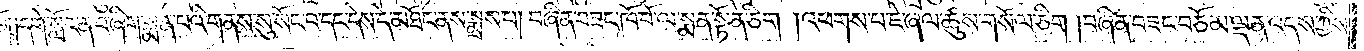སོ༑ ༑དགེ་སློང་ན་བ་ཞིག་སྨན་པའི་གནས་སུ་སོང་བ་དང་དེས་དེ་མཐོང་ནས་སྨྲས་པ། བཞིན་བཟང་ཁོ་བོ་ལ་སྨན་སྟོན་ཅིག །འཕགས་པ་ཇེ་ཞལ་ཚུས་གསོལ་ཅིག །བཞིན་བཟང་བཅོམ་ལྡན་འདས་ཀྱིས་
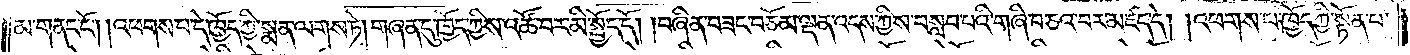མ་གནང་ངོ༌། །འཕགས་པ་དེ་ཁྱོད་ཀྱི་སྨན་ལགས་ཏེ། གཞན་དུ་ཁྱོད་ཀྱིས་འཚོ་བར་མི་སྤྱོད་དོ། །བཞིན་བཟང་བཅོམ་ལྡན་འདས་ཀྱིས་བསླབ་པའི་གཞི་བཅའ་བར་མཛད་དེ། །འཕགས་པ་ཁྱོད་ཀྱི་སྟོན་པ་
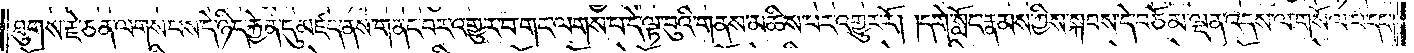ཐུགས་རྗེ་ཅན་ལགས་པས་དེ་ཉིད་རྐྱེན་དུ་མཛད་ནས་གནང་བར་འགྱུར་བ་གང་ལགས་པ་དེ་ལྟ་བུའི་གནས་མཆིས་པར་འགྱུར་རོ། །དགེ་སློང་རྣམས་ཀྱིས་སྐབས་དེ་བཅོམ་ལྡན་འདས་ལ་གསོལ་པ་དང༌།
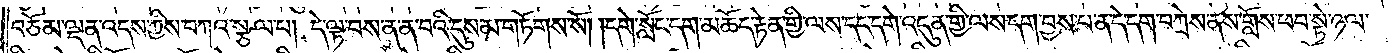བཅོམ་ལྡན་འདས་ཀྱིས་བཀའ་སྩལ་པ། དེ་ལྟ་བས་ན་ན་བའི་དུས་མ་གཏོགས་སོ། །དགེ་སློང་དག་མཆོད་རྟེན་གྱི་ལས་དང་དགེ་འདུན་གྱི་ལས་དག་བྱས་པ་ན་དེ་དག་བཀྲེས་ནས་གློས་ཕབ་སྟེ་ཉལ་
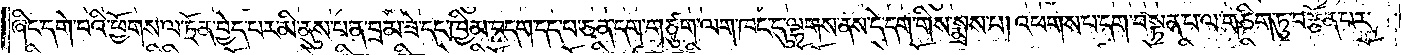ཞིང་དགེ་བའི་ཕྱོགས་ལ་ཏྲོན་བྱེད་པར་མི་ནུས་པ་ན་བྲམ་ཟེ་དང་ཁྱིམ་བདག་དད་པ་ཅན་དག་གཙུག་ལག་ཁང་དུ་ལྷགས་ནས་དེ་དག་གིས་སྨྲས་པ། འཕགས་པ་དག་བསྟན་པ་ལ་གཅིག་ཏུ་བརྩོན་པར་
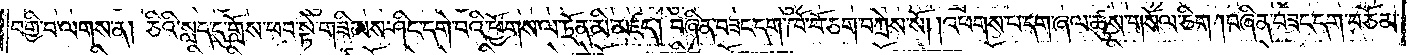བགྱི་བ་ལགས་ན། ཅིའི་སླད་དུ་གློས་ཕབ་སྟེ་གཟིམས་ཤིང་དགེ་བའི་ཕྱོགས་ལ་ཏྲོན་མི་མཛད། བཞིན་བཟང་དག་ཁོ་བོ་ཅག་བཀྲེས་སོ། །འཕགས་པ་དག་ཞལ་ཚུས་གསོལ་ཅིག །བཞིན་བཟང་དག་བཅོམ་
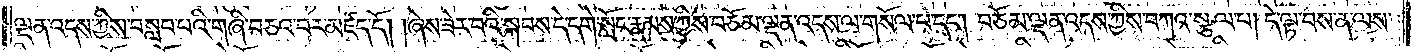ལྡན་འདས་ཀྱིས་བསླབ་པའི་གཞི་བཅའ་བར་མཛད་དོ། །ཞེས་ཟེར་བའི་སྐབས་དེ་དགེ་སློང་རྣམས་ཀྱིས་བཅོམ་ལྡན་འདས་ལ་གསོལ་པ་དང༌། བཅོམ་ལྡན་འདས་ཀྱིས་བཀའ་སྩལ་པ། དེ་ལྟ་བས་ན་ལས་
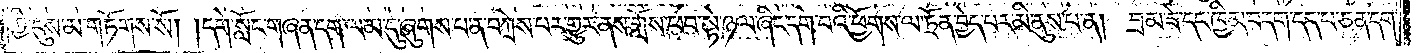ཀྱི་དུས་མ་གཏོགས་སོ། །དགེ་སློང་གཞན་དག་ལམ་དུ་ཞུགས་པ་ན་བཀྲེས་པར་གྱུར་ནས་གློས་ཕབ་སྟེ་ཉལ་ཞིང་དགེ་བའི་ཕྱོགས་ལ་ཏྲོན་བྱེད་པར་མི་ནུས་པ་ན། བྲམ་ཟེ་དང་ཁྱིམ་བདག་དད་པ་ཅན་དག་
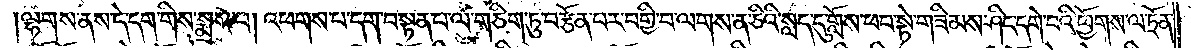ལྷགས་ནས་དེ་དག་གིས་སྨྲས་པ། འཕགས་པ་དག་བསྟན་པ་ལ་གཅིག་ཏུ་བརྩོན་པར་བགྱི་བ་ལགས་ན་ཅིའི་སླད་དུ་གློས་ཕབ་སྟེ་གཟིམས་ཤིང་དགེ་བའི་ཕྱོགས་ལ་ཏྲོན་
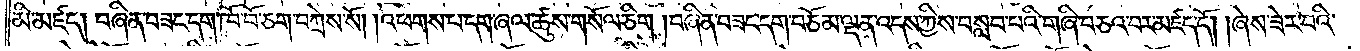མི་མཛད། བཞིན་བཟང་དག་ཁོ་བོ་ཅག་བཀྲེས་སོ། །འཕགས་པ་དག་ཞལ་ཚུས་གསོལ་ཅིག །བཞིན་བཟང་དག་བཅོམ་ལྡན་འདས་ཀྱིས་བསླབ་པའི་གཞི་བཅའ་བར་མཛད་དོ། །ཞེས་ཟེར་བའི་
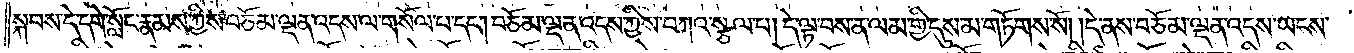སྐབས་དེ་དགེ་སློང་རྣམས་ཀྱིས་བཅོམ་ལྡན་འདས་ལ་གསོལ་པ་དང༌། བཅོམ་ལྡན་འདས་ཀྱིས་བཀའ་སྩལ་པ། དེ་ལྟ་བས་ན་ལམ་གྱི་དུས་མ་གཏོགས་སོ། །དེ་ནས་བཅོམ་ལྡན་འདས་ཡངས་
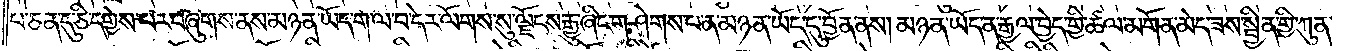པ་ཅན་དུ་ཅི་དགྱེས་པར་བཞུགས་ནས་མཉན་ཡོད་ག་ལ་བ་དེར་ལོགས་སུ་ལྗོངས་རྒྱུ་ཞིང་གཤེགས་པ་ན་མཉན་ཡོད་དུ་བྱོན་ནས། མཉན་ཡོད་ན་རྒྱལ་བྱེད་ཀྱི་ཚལ་མགོན་མེད་ཟས་སྦྱིན་གྱི་ཀུན་
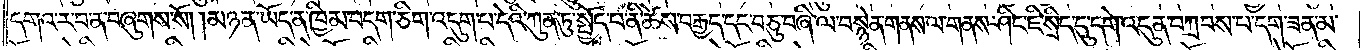དགའ་ར་བ་ན་བཞུགས་སོ། །མཉན་ཡོད་ན་ཁྱིམ་བདག་ཅིག་འདུག་པ་དེའི་ཀུན་ཏུ་སྤྱོད་པ་ནི་ཚེས་བརྒྱད་དང་བཅུ་བཞི་ལ་བསྙེན་གནས་ལ་གནས་ཤིང་ཇི་སྲིད་དུ་དགེ་འདུན་བཀྲབས་པ་དག་ཟན་མ་
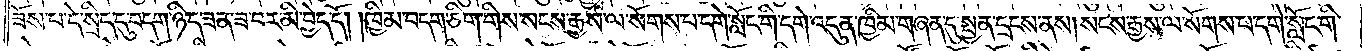ཟོས་པ་དེ་སྲིད་དུ་བདག་ཉིད་ཟན་ཟ་བར་མི་བྱེད་དོ། །ཁྱིམ་བདག་ཅིག་གིས་སངས་རྒྱས་ལ་སོགས་པ་དགེ་སློང་གི་དགེ་འདུན་ཁྱིམ་གཞན་དུ་སྤྱན་དྲངས་ནས། སངས་རྒྱས་ལ་སོགས་པ་དགེ་སློང་གི་
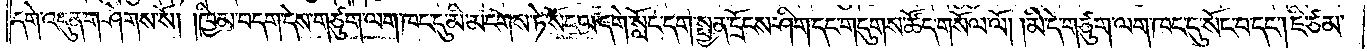དགེ་འདུན་གཤེགས་སོ། །ཁྱིམ་བདག་དེས་གཙུག་ལག་ཁང་དུ་མི་མངགས་ཏེ་སོང་ལ་དགེ་སློང་དག་སྤྱན་དྲོངས་ཤིག་དང་གདུགས་ཚོད་གསོལ་ལོ། །མི་དེ་གཙུག་ལག་ཁང་དུ་སོང་བ་དང༌། ཇི་ཙམ་
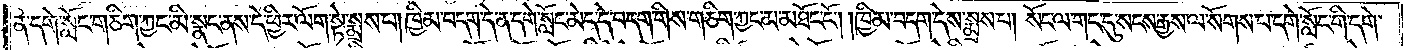ན་དགེ་སློང་གཅིག་ཀྱང་མི་སྣང་ནས་དེ་ཕྱིར་ལོག་སྟེ་སྨྲས་པ། ཁྱིམ་བདག་དེ་ན་དགེ་སློང་མེད་དེ་བདག་གིས་གཅིག་ཀྱང་མ་མཐོང་ངོ༌། །ཁྱིམ་བདག་དེས་སྨྲས་པ། སོང་ལ་གང་དུ་སངས་རྒྱས་ལ་སོགས་པ་དགེ་སློང་གི་དགེ་
